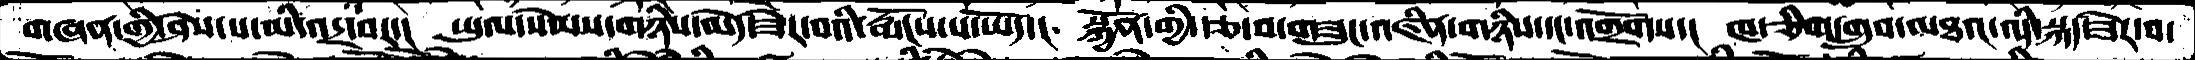གཞན་གྱི་ཤེས་པ་མི་འདྲ་བར་།  ཡུལ་སེམས་གཉིས་མེད་ཟེར་བའི་རྨོངས་པ་ཡོད་།  སྐྱོན་གྱི་རྩ་བ་གཟུང་འཛིན་གཉིས་དང་འགྲོགས་།  ཁ་ཅིག་གྲུབ་མཐའ་འདི་སྐད་ཟེར་བ་
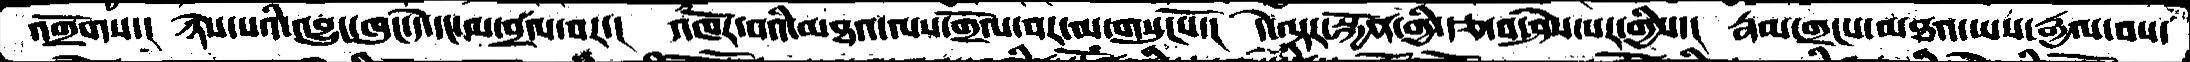འགྲོགས་།  ཉེས་པའི་འབྱུང་ཁུང་དེ་དང་མ་བྲལ་བར་།  འཁོར་བའི་མཐའ་ལས་གྲོལ་བར་མ་གསུངསོ་།  དེ་ལྟར་སྐྱོན་གྱི་རྩ་བ་ཤེས་པར་གྱིས་།  རྣམ་གྲངས་མཐའ་ཡས་རྒྱལ་བས་
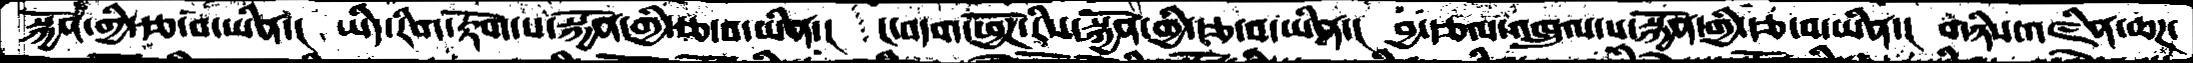སྐྱོན་གྱི་རྩ་བ་ཡིན་།  ཡིད་རིག་རྟོག་པ་སྐྱོན་གྱི་རྩ་བ་ཡིན་།   ང་བདག་ཕྱོཌ་རིས་སྐྱོན་གྱི་རྩ་བ་ཡིན་།  བྱ་རྩལ་འཁྲུལ་པ་སྐྱོན་གྱི་རྩ་བ་ཡིན་།  གཉིས་འཛིན་ཆཌ་
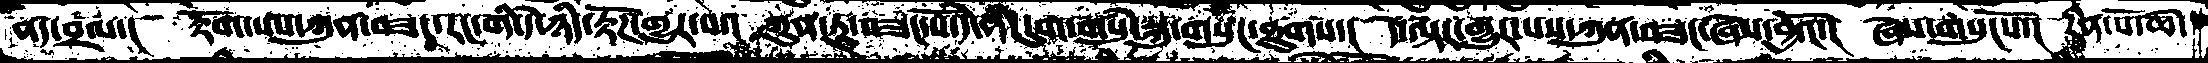ནད་བྲལ་།  རྟོག་པས་ཀུནབཟང་རང་གི་དེ་ཉིད་རྟོཌ་གྱུར་བ་།  ཀུན་ཏུ་བཟང་པོ་དེ་ནི་དུག་གསུཾ་སྐུ་གསུང་ཐུགས་།  དེ་ལྟར་གྱུར་པས་ཀུན་བཟང་ཞེས་བྱའོ་།  ཞེས་གསུངསོ་།  རིན་པོ་ཆེ་
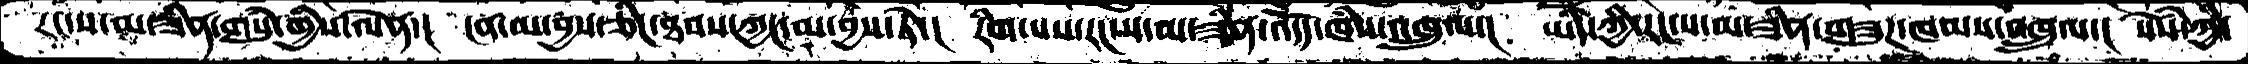རང་ས་མ་ཟིན་གསུཾ་གྱིས་ལེན་།  ངན་མ་བྱས་ཅིང་ཐབས་ཀྱང་མ་བྱས་ཏེ་།  རིག་པས་རང་ས་མ་ཟིན་འདོད་ཁཾས་འཁྲུལ་།  ཡིད་ཀྱི་རང་ས་མ་ཟིན་གཟུཌ་ཁམས་འཁྲུལ་།  སེཾས་ཀྱི་
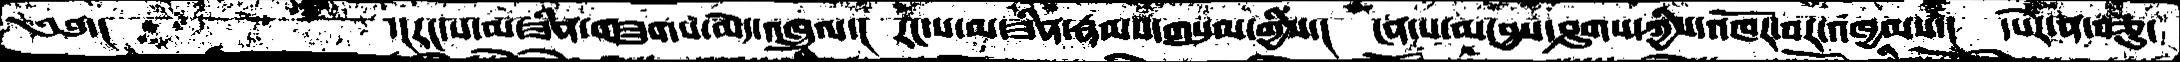༄༅་།        ་།རང་ས་མ་ཟིན་གཟུགས་མེད་འཁྲུལ་།  རང་ས་མ་ཟིན་རྣམས་གསུམ་གྱིས་།  ངན་པ་མ་བྱས་ཤུགས་ཀྱིས་འཁོར་བར་འཁྱམས་།   དཔེར་ན་བཅུ་
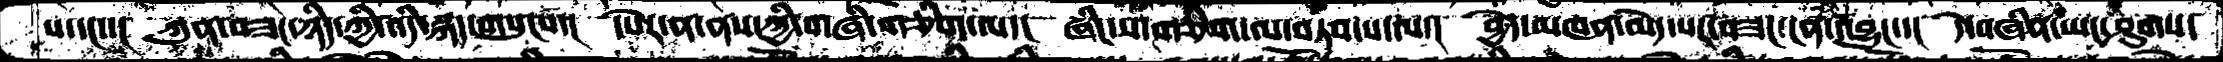པ་དང་་།  ཀུན་བཟང་ཉིད་ཀྱི་འདི་སྐད་གསུངས་།  དཔེར་ན་ནས་ཀྱི་གཞི་གཅིག་ལ་།  ཞིང་ས་གཅིག་ལ་བཏབ་པ་ལ་།  བྱེད་མཁན་མེད་པར་བཟང་ངན་འབྱུང་་།  དེ་བཞིན་ཡང་ཤུགས་
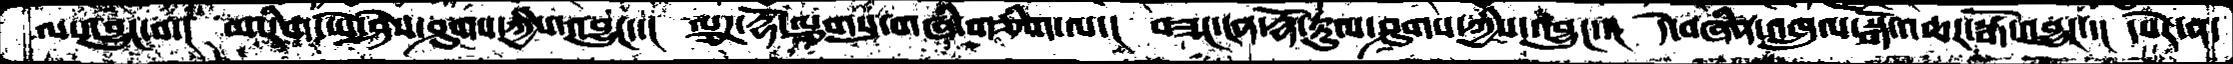ལས་བྱུང་བ་།  མ་རིག་ཡེ་ཤེས་ཤུགས་ཀྱིས་འབྱུང་་།  ལྕཌ་རྡོ་ལྕགསུ་གཞི་གཅིག་ལ་།  བཟང་ངན་རྣོ་རྟུལ་ཤུགས་ཀྱིས་འབྱུང་་།  དེ་བཞིན་འཁྲུལ་སྒོ་འཆར་སྒོ་འབྱུང་་།  དཔེར་ན་
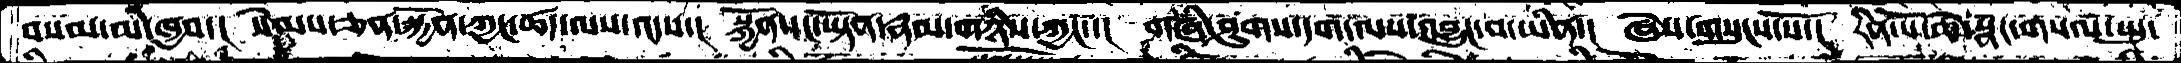བསམ་མི་ཁྱབ་།  སེམས་ཅན་སྐྱོན་ཀྱང་ཚད་ལས་འདས་།  སྐྱོན་དང་ཡྟོན་རྣམ་གཉིས་ཀྱང་་།  གཞི་ཤུགས་དག་ལས་འབྱུང་བ་ཡིན་།  ཞེས་གསུངས་སོ་།  རིན་པོ་ཆེ་སྣང་གསལ་སྤུ་
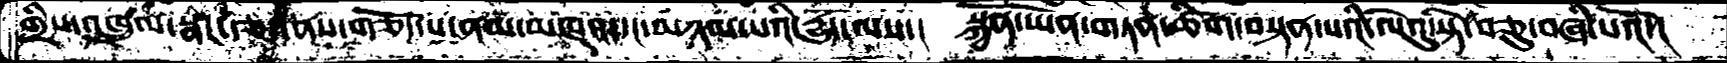གྲིས་འཁྲུལ་སྣང་རྩད་ནས་གཅོད་པ་ནམ་མཁའ་དང་མཉམ་པའི་དྱུད་ལས་།  སྐྱོན་ཡོན་གཏན་ཚིག་བསྟན་པའི་ལེའུ་སྟེ་བཅུ་བཞི་པའོ་།
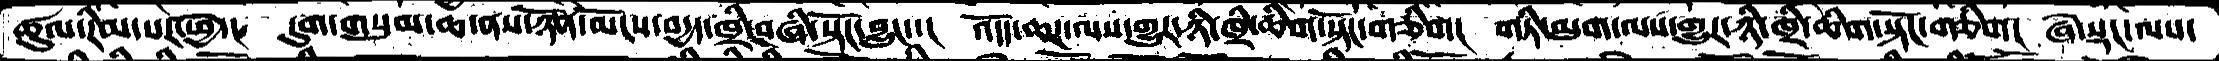ཚུལ་རིམ་པར་ཕྱེ་།  དུག་གསུམ་ཆ་ནས་ཉོན་མོངས་བདྱད་ཁྲི་བཞི་སྟོང་བྱུང་་།  འདོད་ཆཌ་ལས་གྱུར་ཉི་ཁྲི་ཆིག་སྟོང་གཅིག།  གཏི་མུག་ལས་གྱུར་ཉི་ཁྲི་ཆིག་སྟོང་གཅིག།  ཞེ་སྡང་ལས་
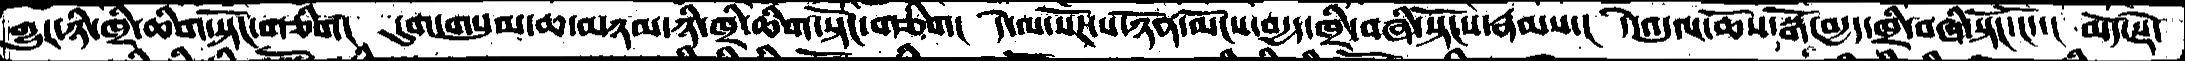གྱུར་ཉི་ཁྲི་ཆིག་སྟོང་གཅིག།  དུག་གསུམ་ཆ་མཉམ་ཉི་ཁྲི་ཆིག་སྟོང་གཅིག།  དེ་ལ་སོཌ་པ་ཉོན་མོངས་བདྱད་ཁྲི་བཞི་སྟོངས་རྣམས་།  དེ་འདུལ་ཆོས་སྒོ་བདྱད་བཞི་སྟོང་ངོ་་།  མདོ་སྡེ་
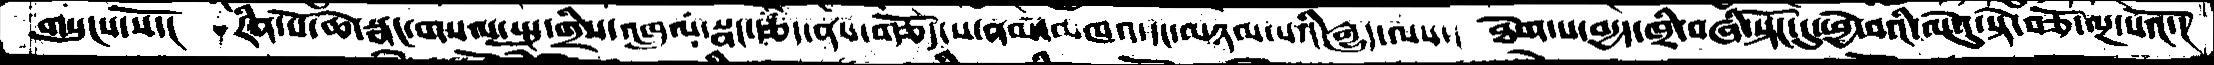གསུངས་སོ་།   རིན་པོ་ཆེ་སྣང་གསལ་སྤུ་གྲིས་འཁྲུལ་སྣང་རྩད་ནས་བརྩོད་པ་ནམ་མཁའ་དང་མཉམ་པའི་རྒྱུད་ལས་།  ཐེག་པ་བདྱད་ཁྲི་བཞི་སྟོང་དུ་ཕྱེ་བའི་ལེའུ་སྟེ་བཅོ་ལྔ་པའོ་།
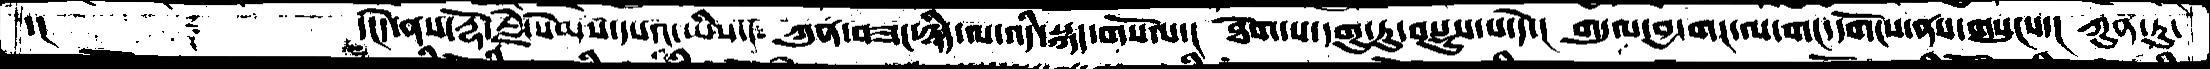་།        ༈         ་།དེ་ནས་རྡོ་རྗེ་སེམས་དཔའ་ཡིས་།  ཀུན་བཟང་ཉིད་ལ་འདི་སྐད་གསོལ་།  ཐེག་པ་དགུ་རུ་བསྡུས་པ་དེ་།  གདུལ་བྱ་གང་ལ་གང་དགོངས་ནས་གསུངས་།  ཀུན་ཏུ་
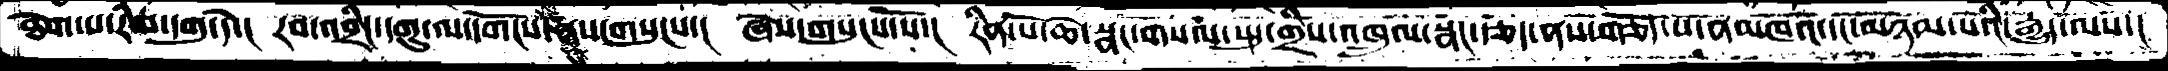ཐེག་པ་རིམ་དགུ་དེ་།  རབ་འབྲིང་དགུ་ལ་དགོངས་ནས་གསུངས་།  ཞེས་གསུངས་སོ་།  རིན་པོ་ཆེ་སྣང་གསལ་སྤུ་གྲིས་འཁྲུལ་སྣང་རྩད་ནས་གཅོད་པ་ནམཁའ་དང་མཉམ་པའི་རྒྱུད་ལས་།
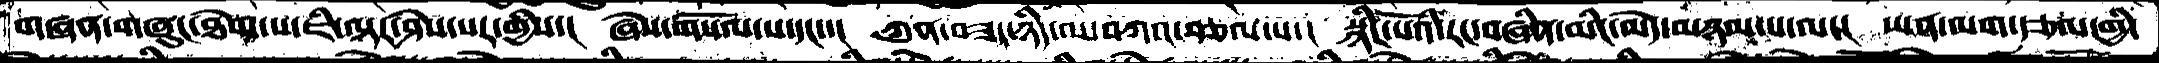གཞན་གཞུང་ཐེག་པ་ཇི་ལྟར་ཤེས་པར་གྱིས་།  ཞེས་གསལོ་པ་དང་།  ཀུན་བཟང་ཉིད་ལ་བཀའ་སྩལ་པ་།  སྙིང་པོའི་རང་བཞིན་མིང་མེད་མཉམ་པ་ལ་།  ཡན་ལག་རྩལ་གྱི་
